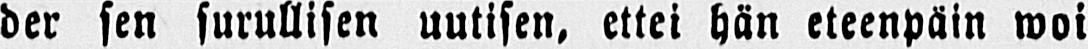der sen surullisen uutisen, ettei hän eteenpäin woi
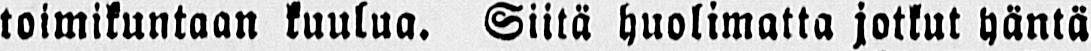toimikuntaan kuulua. Siitä huolimatta jotkut häntä
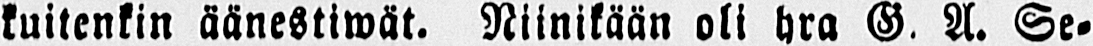kuitenkin äänestiwät. Niinikään oli hra G. A. Se-
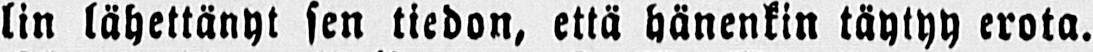lin lähettänyt sen tiedon, että hänenkin täytyy erota.
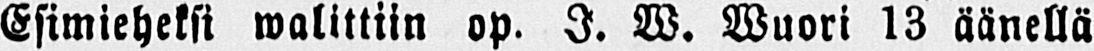Esimieheksi walittiin op. I. W. Wuori 13 äänellä
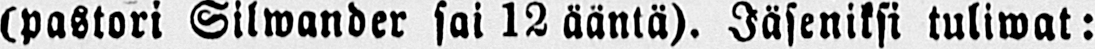(pastori Silwander sai 12 ääntä). Jäseniksi tuliwat:
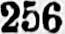256
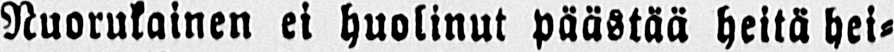Nuorukainen ei huolinut päästää heitä hei-
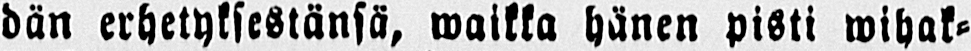dän erhetyksestänsä, waikka hänen pisti wihak-
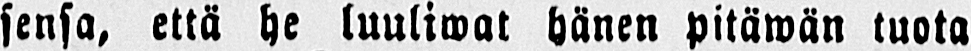sensa, että he luuliwat hänen pitäwän tuota
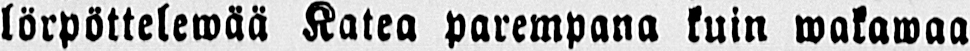lörpöttelewää Katea parempana kuin wakawaa
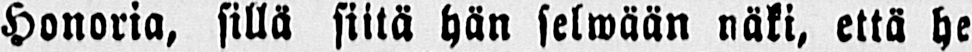Honoria, sillä siitä hän selwään näki, että he
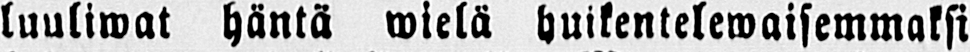luuliwat häntä wielä huikentelewaisemmaksi
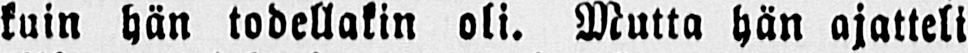kuin hän todellakin oli. Mutta hän ajatteli
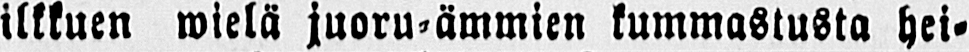ilkkuen wielä juoru-ämmien kummastusta hei-
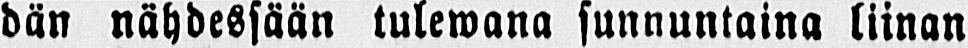dän nähdessään tulewana sunnuntaina liinan
